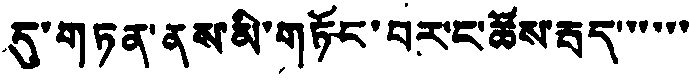དུ་གཏན་ནས་མི་གཏོང་བར་ང་ཚོས་རྦུད་་་་་་
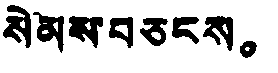སེམས་བཅངས。
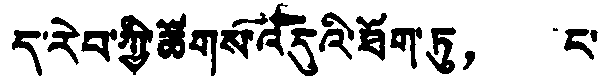ད་རེབ་ཀྱི་ཚོགས་འདུའི་ཐོག་ཏུ， ང་
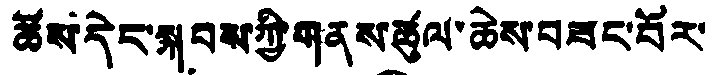ཚོས་དེང་སྐབས་ཀྱི་གནས་ཚུལ་ཆེས་བཟང་བོར་
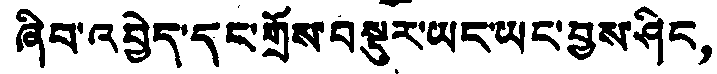ཞིབ་འབྱེད་དང་གྲོས་བསྡུར་ཡང་ཡང་བྱས་ཤིང，
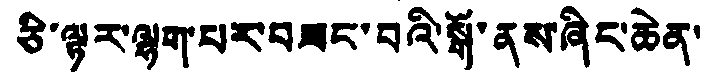ཅི་ལྟར་ལྷག་པར་བཟང་བའི་སྒོ་ནས་ཞིང་ཆེན་
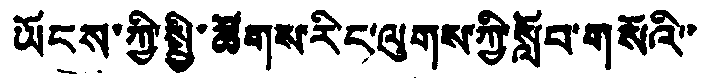ཡོངས་ཀྱི་སྤྱི་ཚོགས་རིང་ལུགས་ཀྱི་སློབ་གསོའི་་
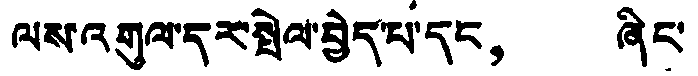ལས་འགུལ་དར་སྤེལ་བྱེད་པ་དང， ཞིང་
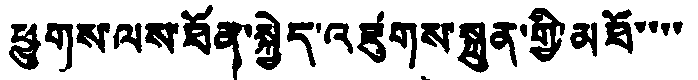ཕྱུགས་ལས་ཐོན་སྐྱེད་འཛུགས་སྐྲུན་གྱི་མཐོ་་་་་
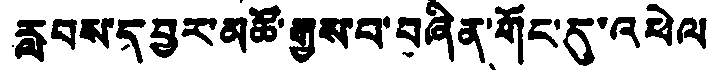རླབས་དབྱར་མཚོ་རྒྱས་པ་བཞིན་གོང་དུ་འཕེལ
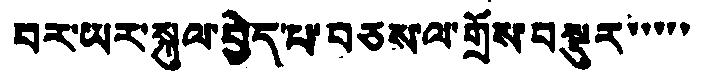བར་ཡར་སྐུལ་བྱེད་པ་བཅས་ལ་གྲོས་བསྡུར་་་་་
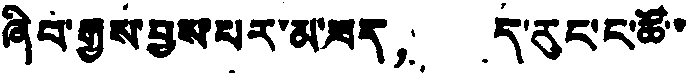ཞིབ་རྒྱས་བྱས་པར་མ་ཟད， ད་རུང་ང་ཚོ་་
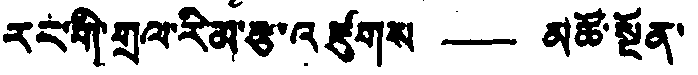རང་གི་གྲལ་རིམ་རྩ་འཛུགས ——མཚོ་སྔོན་
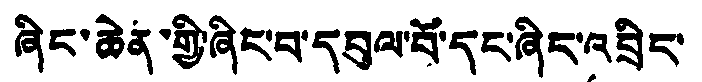ཞིང་ཆེན་གྱི་ཞིང་བ་དབུལ་བོ་དང་ཞིང་འབྲིད་
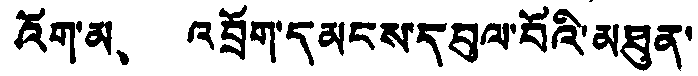འོག་མ、 འབྲོག་དམངས་དབུལ་བོའི་མཐུན་
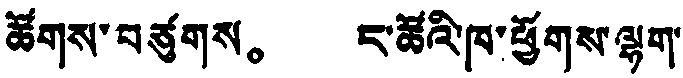ཚོགས་བཙུགས。 ང་ཆོའི་ཁ་ཕྱོགས་ལྷག་
